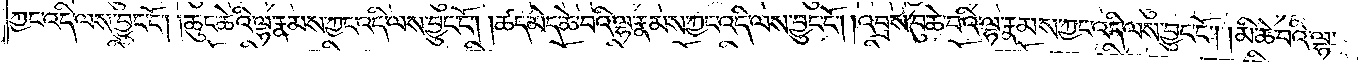ཀྱང་འདི་ལས་བྱུང་ངོ༌། །ཆུང་ཆེའི་ལྷ་རྣམས་ཀྱང་འདི་ལས་བྱུང་ངོ༌། །ཚད་མེད་ཆེ་བའི་ལྷ་རྣམས་ཀྱང་འདི་ལས་བྱུང་ངོ༌། །འབྲས་བུ་ཆེ་བའི་ལྷ་རྣམས་ཀྱང་འདི་ལས་བྱུང་ངོ༌། །མི་ཆེ་བའི་ལྷ་
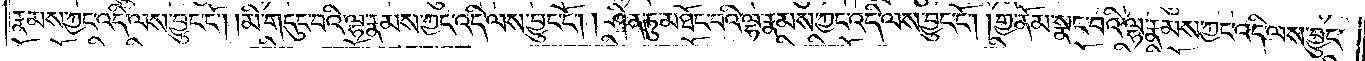རྣམས་ཀྱང་འདི་ལས་བྱུང་ངོ༌། །མི་གདུང་བའི་ལྷ་རྣམས་ཀྱང་འདི་ལས་བྱུང་ངོ༌། །ཤིན་ཏུ་མཐོང་བའི་ལྷ་རྣམས་ཀྱང་འདི་ལས་བྱུང་ངོ༌། །གྱ་ནོམ་སྣང་བའི་ལྷ་རྣམས་ཀྱང་འདི་ལས་བྱུང་
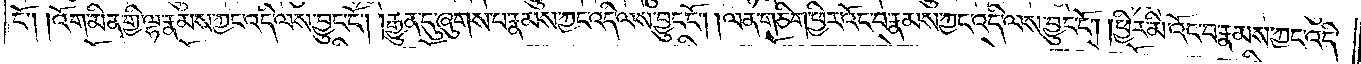ངོ༌། །འོག་མིན་གྱི་ལྷ་རྣམས་ཀྱང་འདི་ལས་བྱུང་ངོ༌། །རྒྱུན་དུ་ཞུགས་པ་རྣམས་ཀྱང་འདི་ལས་བྱུང་ངོ༌། །ལན་གཅིག་ཕྱིར་འོང་བ་རྣམས་ཀྱང་འདི་ལས་བྱུང་ངོ༌། །ཕྱིར་མི་འོང་བ་རྣམས་ཀྱང་འདི་
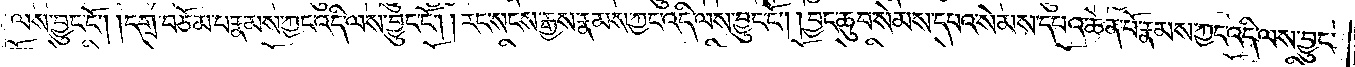ལས་བྱུང་ངོ༌། །དགྲ་བཅོམ་པ་རྣམས་ཀྱང་འདི་ལས་བྱུང་ངོ༌། །རང་སངས་རྒྱས་རྣམས་ཀྱང་འདི་ལས་བྱུང་ངོ༌། །བྱང་ཆུབ་སེམས་དཔའ་སེམས་དཔའ་ཆེན་པོ་རྣམས་ཀྱང་འདི་ལས་བྱུང་
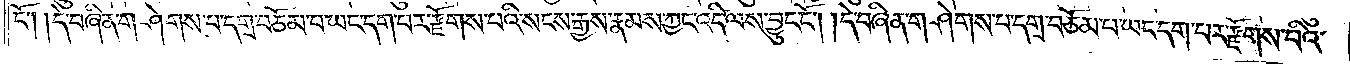ངོ༌། །དེ་བཞིན་གཤེགས་པ་དགྲ་བཅོམ་པ་ཡང་དག་པར་རྫོགས་པའི་སངས་རྒྱས་རྣམས་ཀྱང་འདི་ལས་བྱུང་ངོ༌། །དེ་བཞིན་གཤེགས་པ་དགྲ་བཅོམ་པ་ཡང་དག་པར་རྫོགས་པའི་
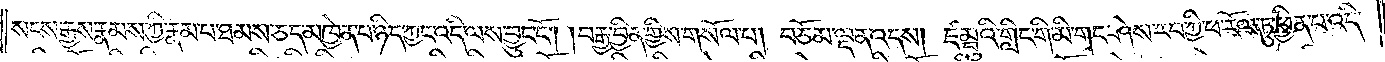སངས་རྒྱས་རྣམས་ཀྱི་རྣམ་པ་ཐམས་ཅད་མཁྱེན་པ་ཉིད་ཀྱང་འདི་ལས་བྱུང་ངོ༌། །བརྒྱ་བྱིན་གྱིས་གསོལ་པ། བཅོམ་ལྡན་འདས། ཛམྦུའི་གླིང་གི་མི་གང་ཤེས་རབ་ཀྱི་ཕ་རོལ་ཏུ་ཕྱིན་པ་འདི་
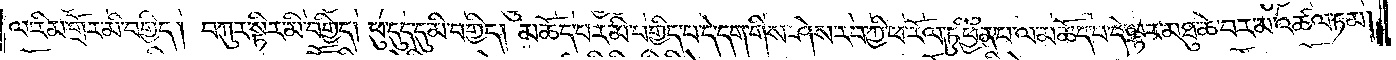ལ་རིམ་གྲོར་མི་བགྱིད། བཀུར་སྟིར་མི་བགྱིད། ཕུ་དུད་དུ་མི་བགྱིད། མཆོད་པར་མི་བགྱིད་པ་དེ་དག་གིས་ཤེས་རབ་ཀྱི་ཕ་རོལ་ཏུ་ཕྱིན་པ་ལ་མཆོད་པ་དེ་ལྟར་མཐུ་ཆེ་བར་མ་འཚལ་ཏམ།
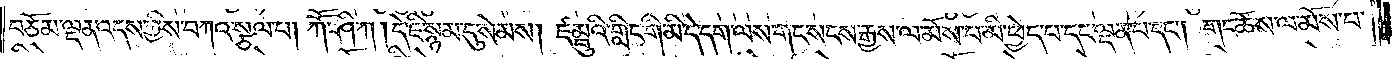བཅོམ་ལྡན་འདས་ཀྱིས་བཀའ་སྩལ་པ། ཀཽ་ཤི་ཀ། དེ་ཇི་སྙམ་དུ་སེམས། ཛམྦུའི་གླིང་གི་མི་དེ་དག་ལས་གང་སངས་རྒྱས་ལ་མོས་པ་མི་ཕྱེད་པ་དང་ལྡན་པ་དང༌། གང་ཆོས་ལ་མོས་པ་
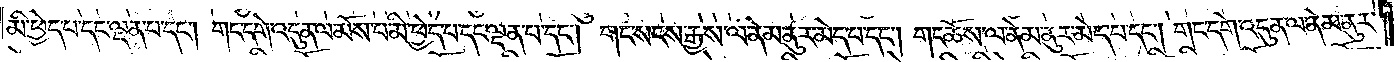མི་ཕྱེད་པ་དང་ལྡན་པ་དང༌། གང་དགེ་འདུན་ལ་མོས་པ་མི་ཕྱེད་པ་དང་ལྡན་པ་དང༌། གང་སངས་རྒྱས་ལ་ནེམ་ནུར་མེད་པ་དང༌། གང་ཆོས་ལ་ནེམ་ནུར་མེད་པ་དང༌། གང་དགེ་འདུན་ལ་ནེམ་ནུར་
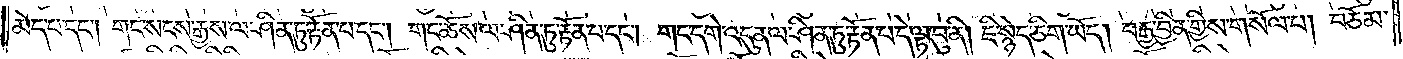མེད་པ་དང༌། གང་སངས་རྒྱས་ལ་ཤིན་ཏུ་རྟོན་པ་དང༌། གང་ཆོས་ལ་ཤིན་ཏུ་རྟོན་པ་དང༌། གང་དགེ་འདུན་ལ་ཤིན་ཏུ་རྟོན་པ་དེ་ལྟ་བུ་ནི། ཇི་སྙེད་ཅིག་ཡོད། བརྒྱ་བྱིན་གྱིས་གསོལ་པ། བཅོམ་
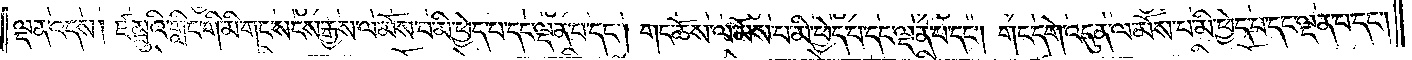ལྡན་འདས། ཛམྦུའི་གླིང་གི་མི་གང་སངས་རྒྱས་ལ་མོས་པ་མི་ཕྱེད་པ་དང་ལྡན་པ་དང༌། གང་ཆོས་ལ་མོས་པ་མི་ཕྱོད་པ་དང་ལྡན་པ་དང༌། གང་དགེ་འདུན་ལ་མོས་པ་མི་ཕྱེད་པ་དང་ལྡན་པ་དང༌།
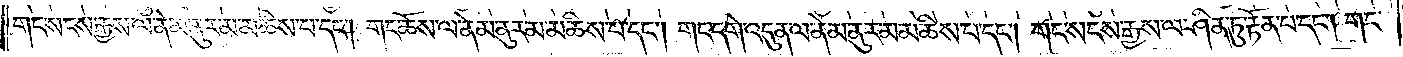གང་སངས་རྒྱས་ལ་ནེམ་ནུར་མ་མཆིས་པ་དང༌། གང་ཆོས་ལ་ནེམ་ནུར་མ་མཆིས་པ་དང༌། །གང་དགེ་འདུན་ལ་ནེམ་ནུར་མ་མཆིས་པ་དང༌། གང་སངས་རྒྱས་ལ་ཤིན་ཏུ་རྟོན་པ་དང༌། གང་
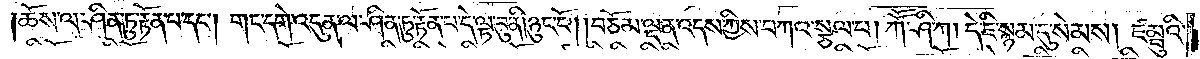ཆོས་ལ་ཤིན་ཏུ་རྟོན་པ་དང༌། གང་དགེ་འདུན་ལ་ཤིན་ཏུ་རྟོན་པ་དེ་ལྟ་བུ་ནི། ཉུང་ངོ༌། །བཅོམ་ལྡན་འདས་ཀྱིས་བཀའ་སྩལ་པ། ཀཽ་ཤི་ཀ། དེ་ཇི་སྙམ་དུ་སེམས། ཛམྦུའི་
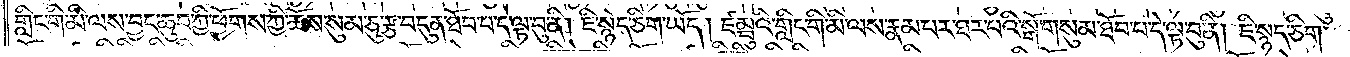གླིང་གི་མི་ལས་བྱང་ཆུབ་ཀྱི་ཕྱོགས་ཀྱི་ཆོས་སུམ་ཅུ་རྩ་བདུན་ཐོབ་པ་དེ་ལྟ་བུ་ནི། ཇི་སྙེད་ཅིག་ཡོད། ཛམྦུའི་གླིང་གི་མི་ལས་རྣམ་པར་ཐར་པའི་སྒོ་གསུམ་ཐོབ་པ་དེ་ལྟ་བུ་ནི། ཇི་སྙེད་ཅིག་
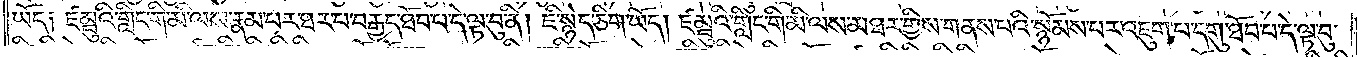ཡོད། ཛམྦུའི་གླིང་གི་མི་ལས་རྣམ་པར་ཐར་པ་བརྒྱད་ཐོབ་པ་དེ་ལྟ་བུ་ནི། ཇི་སྙེད་ཅིག་ཡོད། ཛམྦུའི་གླིང་གི་མི་ལས་མཐར་གྱིས་གནས་པའི་སྙོམས་པར་འཇུག་པ་དགུ་ཐོབ་པ་དེ་ལྟ་བུ་
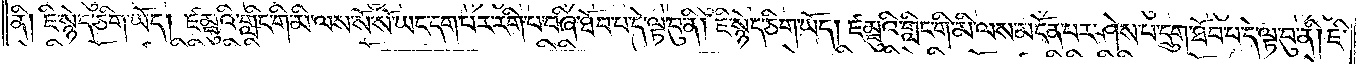ནི། ཇི་སྙད་ཅིག་ཡོད། ཛམྦུའི་གླིང་གི་མི་ལས་སོ་སོ་ཡང་དག་པར་རིག་པ་བཞི་ཐོབ་པ་དེ་ལྟ་བུ་ནི། ཇི་སྙེད་ཅིག་ཡོད། ཛམྦུའི་གླིང་གི་མི་ལས་མངོན་པར་ཤེས་པ་དྲུག་ཐོབ་པ་དེ་ལྟ་བུ་ནི། ཇི་
